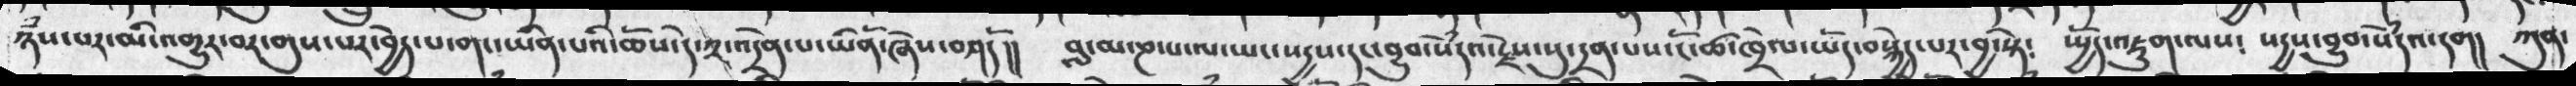ཉཾས་པར་མི་འགྱུར་བར་གུས་པར་བྱེད་པ་གང་ཡིན་པའི་ཆོས་དེ་༢་འདྲེན་པ་ཡིནོ་ཞེས་བཤདོ།།  བླ་མ་ཎ་པ་ལ་ཡང་སདྱས་དང་བྱུབ་སེཾདའ་རྗེས་སུ་དྲན་པས་ངོ་ཚ་ཁྲེལ་ཡོད་བསྐྱེད་པར་བྱ་སྟེ༴  སྤྱོད་འཇུག་ལས༴ སདྱས་བྱུབ་སེཾདའ་དག། ཀུན་
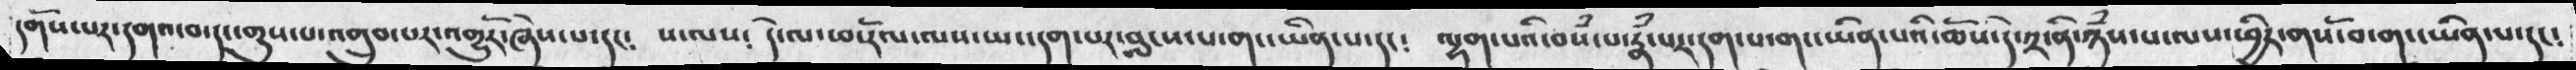དགོས་པར་དགའ་བ་དང་གུས་པ་འགྲུབ་པར་གྱུརོ་ཞེས་པ་དང༴ ས་ལས༴ དེ་ལ་ཕ་རོལ་ལས་ཡང་དག་པར་བླངས་པ་གང་ཡིན་པ་དང༴ ལྷག་པའི་བསཾ་པ་རྣཾ་པར་དག་པ་གང་ཡིན་པའི་ཆོས་དེ་༢་ནི་ཉཾས་པ་ལས་ཕྱིར་གསོ་བ་གང་ཡིན་པ་དང༴
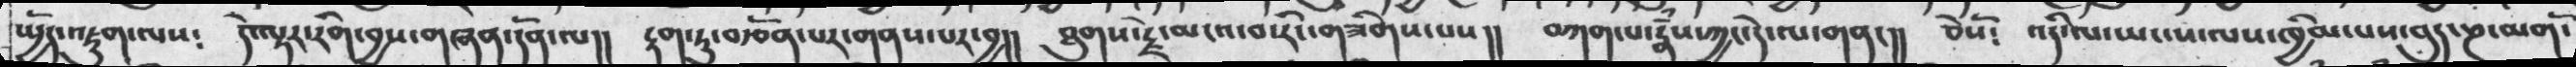སྤྱོད་འཇུག་ལས༴  དེ་ལྟར་རིག་བྱས་གཞན་དོན་ལ།།  རྟག་ཏུ་བརྩོན་པར་གནས་པར་བྱ།།  ཐུགས་རྗེ་མངའ་བ་རིང་གཟིགས་པས།།  བཀག་པ་རྣཾས་ཀྱང་དེ་ལ་གནང།།  ཅེསོ༴  འདི་ལ་ཡང་ས་ལས་ཁྱིམ་པས་བུད་ཎ་མགོ་
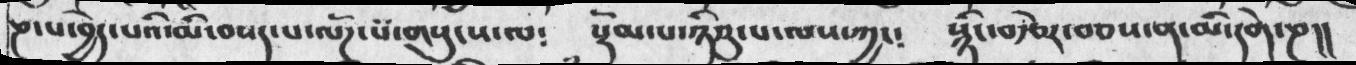ཎ་པ་བྱེད་པའི་མི་བསད་པ་ལོཌ་པ་གསུངས་ལ༴  སྡོམ་པ་ཉིཤུ་པ་ལས་ཀྱང༴  སྙིང་བརྩེར་བཅས་ན་མི་དགེ་ཎ།།
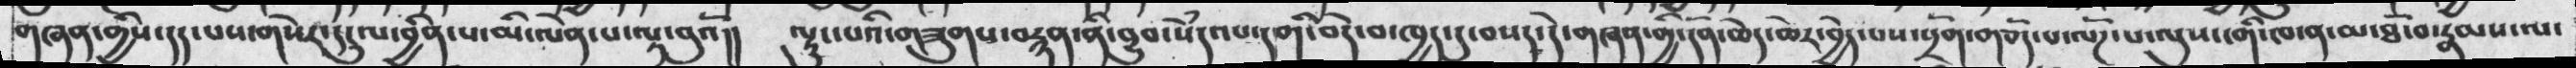གཞན་གྱིས་དད་པས་གསེར་དངུལ་བྱིན་པ་མི་ལེན་པ་ལྟ་བུའོ།།  ལྟུང་པའི་གཟུགས་བརྙན་ནི་བྱུབ་སེཾདའཔ་དགི་བདེ་བ་ཁྱད་དུ་བསད་དེ་གཞན་གྱི་དོན་ཆེད་ཆེར་བྱེད་པས་སྲོག་གཅོད་པ་ལོཌ་པ་ལུས་ངགི་ཁ་ན་མ་ཐོ་བ་རྣམས་ལ་
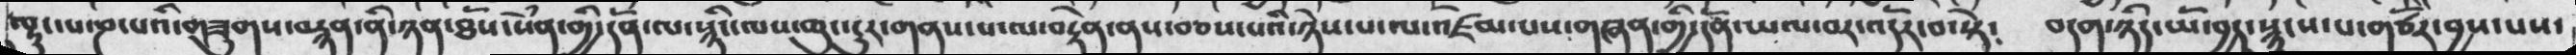ལྟུང་པ་ཎ་པའི་གཟུགས་བརྙན་ནི་ཉན་ཐོས་སེཾན་གྱི་དོན་ལ་སྙིང་ལས་ཆུང་ངུར་གནས་པ་ལ་བརྟེན་ནས་བཅས་པའི་ཉེས་པ་ལ་འཛེམ་པས་གཞན་གྱི་དོན་ཡལ་བར་འདོར་བ་སྟེ༴ བདག་ཉིད་ཡོ་བྱད་སྙུངས་པ་གཙོར་བྱས་པས་
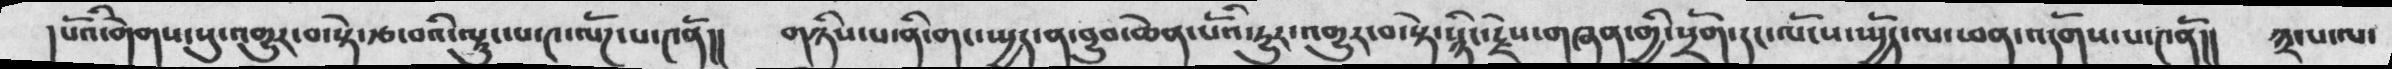།པོའི་གེགས་སུ་འགྱུར་བ་སྟེ་རྩ་བའི་ལྟུང་པ་༩་ལོཌ་པ་༤ནོ།། གཉིས་པ་ནི་སྤྱད་ན་བྱུབ་ཆེན་པོའི་རྱུར་འགྱུར་བ་སྟེ་སྙིང་རྗེས་གཞན་གྱི་སྲོག་དང་ལོངས་སྤྱོད་ལ་ཕན་འདོགས་པ་༤ནོ།། ༣་པ་ལ་
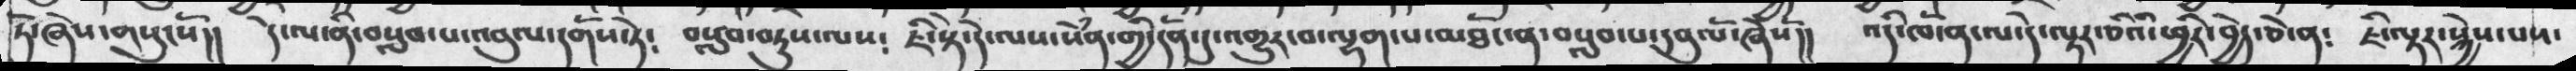ཏེ་ཞེས་གསུངསོ།། དེ་ལ་ནི་བསླབ་པ་འབུལ་དགོས་ཏེ༴ བསླབ་བཏུས་ལས༴ ཇི་སྟེ་དེ་ལས་སེཾན་གྱི་དོན་དུ་འགྱུར་བ་ལྷག་པ་མཐོང་ན་བསླབ་པ་དབུལོ་ཞེསོ།།  འདི་ཁོ་ན་ལ་དེ་ལྟར་ཅིའི་ཕྱིར་བྱེད་ཅེ་ན༴  ཇི་ལྟར་སྐྱེས་པས་
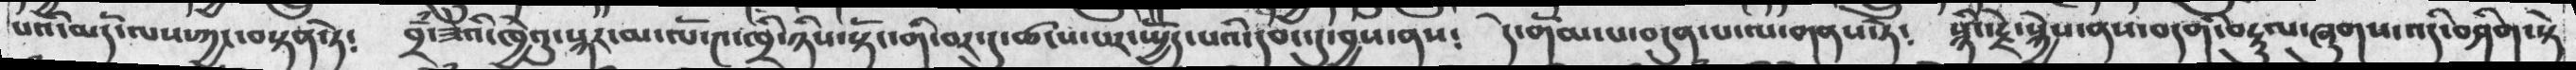པའི་མདོ་ལས་ཀྱང་བསྟན་ཏེ༴   བྲཾ་ཟེའི་ཁྱེའུ་སྐར་མ་ལོ་༤་ཁྲི་ཉིས་སྟོང་གི་བར་དུ་ཚངས་པར་སྤྱོད་པའི་དབང་དུ་བྱས་ནས༴   དེ་གོམ་པ་བདུན་པ་ལ་གནས་ཏེ༴   སྙིང་རྗེ་སྐྱེས་ནས་བདགི་བརྟུལ་ཞུགས་འདི་བཤིག་སྟེ
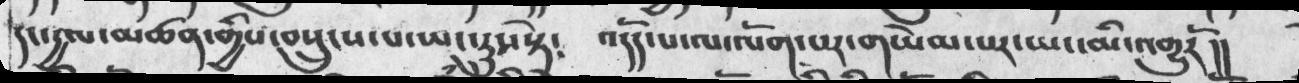དང་དྱལ་མཚན་གྱིས་བསྲུངས་པ་ཡང་རུང་སྟེ༴  འདོད་པ་ལ་ལོག་པར་གཡེམ་པར་ཡང་མི་འགྱུརོ།།
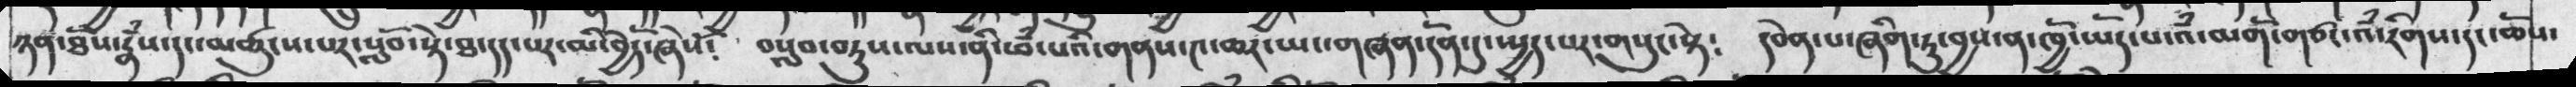ཉན་ཐོས་རྣཾས་དང་མཚུངས་པར་སློབ་སྟེ་ཐ་དད་པར་མི་བྱེདོ་ཞེསོ༴ བསླབ་བཏུས་ལས་ནི་ཕཾ་པའི་གནས་༤་ཆར་ཡང་གཞན་དོན་དུ་སྤྱད་པར་གསུང་སྟེ༴ དབེན་པ་ཞིག་ཏུ་བྱས་ན་ཁྱོ་ཡོད་པ་འཾ་མགོ་གཙང་འཾ་རིགས་དང་ཆོས་
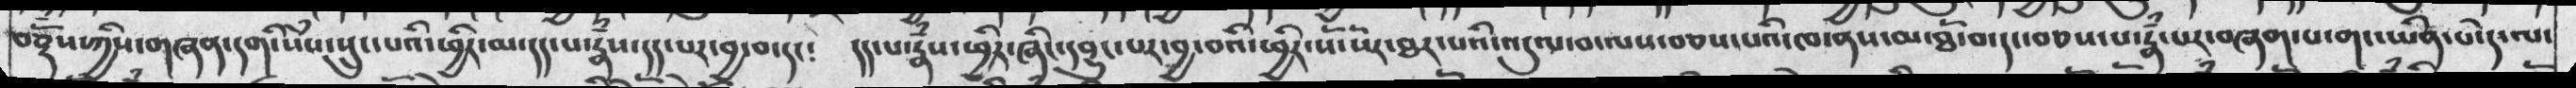བཅྡོས་ཀྱིས་གཞན་དགི་སེཾས་སྲུང་པའི་ཕྱིར་མ་དད་པ་རྣཾས་དད་པར་བྱ་བ་དང༴ དད་པ་རྣཾས་ཕྱིར་ཞིང་དབྱུང་པར་བྱ་བའི་ཕྱིར་སོ་སོར་ཐར་པའི་འདུལ་བ་ལས་བཅས་པའི་ཁ་ནས་མ་ཐོ་བ་དང་བཅས་པ་རྣཾ་པར་བཞག་པ་གང་ཡིན་པ་དེ་ལ་
